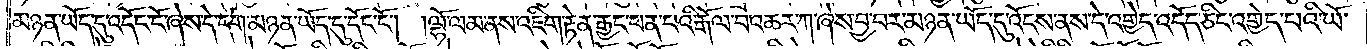མཉན་ཡོད་དུ་འདོང་ངོ་ཞེས་དེ་དག་མཉན་ཡོད་དུ་དོང་ངོ༌། །ལྷོ་ལམ་ནས་འཇིག་རྟེན་རྒྱང་ཕན་པའི་རྒོལ་བ་འཆར་ཀ་ཞེས་བྱ་བར་མཉན་ཡོད་དུ་འོངས་ནས་དེ་འགྱེད་འདོད་ཅིང་འགྱེད་པའི་ཡོ་
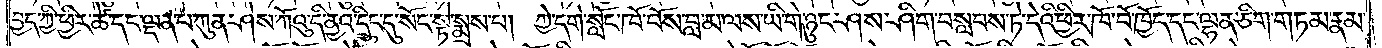བྱད་ཀྱི་ཕྱིར་ཚེ་དང་ལྡན་པ་ཀུན་ཤེས་ཀོའུ་དི་ནྱའི་དྲུང་དུ་སོང་སྟེ་སྨྲས་པ། ཀྱེ་དགེ་སློང་ཁོ་བོས་བླ་མ་ལས་ཡི་གེ་ཉུང་ཤས་ཤིག་བསླབས་ཏེ་དེའི་ཕྱིར་ཁོ་བོ་ཁྱོད་དང་ལྷན་ཅིག་གཏམ་རྣམ་
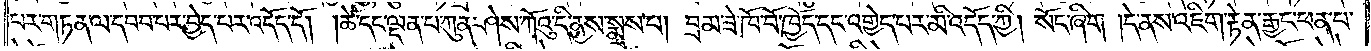པར་གཏན་ལ་དབབ་པར་བྱེད་པར་འདོད་དོ། །ཚེ་དང་ལྡན་པ་ཀུན་ཤེས་ཀོའུ་དི་ནྱས་སྨྲས་པ། བྲམ་ཟེ་ཁོ་བོ་ཁྱོད་དང་འགྱེད་པར་མི་འདོད་ཀྱི། སོང་ཞིག །དེ་ནས་འཇིག་རྟེན་རྒྱང་ཕན་པ་
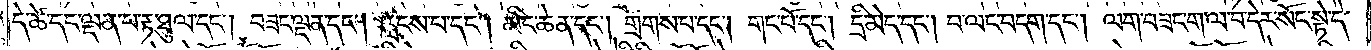དེ་ཚེ་དང་ལྡན་པ་རྟ་ཐུལ་དང༌། བཟང་ལྡན་དང༌། རླངས་པ་དང༌། མིང་ཆེན་དང༌། གྲགས་པ་དང༌། གང་པོ་དང༌། དྲི་མེད་དང༌། བ་ལང་བདག་དང༌། ལག་བཟང་ག་ལ་བ་དེར་སོང་སྟེ་དེ་
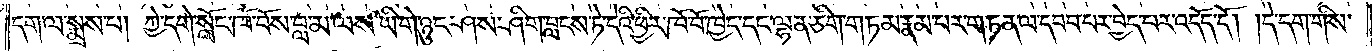དག་ལ་སྨྲས་པ། ཀྱེ་དགེ་སློང་ཁོ་བོས་བླ་མ་ལས་ཡི་གེ་ཉུང་ཤས་ཤིག་བླངས་ཏེ་དེའི་ཕྱིར་ཁོ་བོ་ཁྱེད་དང་ལྷན་ཅིག་གཏམ་རྣམ་པར་གཏན་ལ་དབབ་པར་བྱེད་པར་འདོད་དོ། །དེ་དག་གིས་
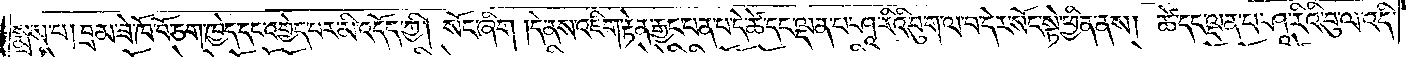སྨྲས་པ། བྲམ་ཟེ་ཁོ་བོ་ཅག་ཁྱེད་དང་འགྱེད་པར་མི་འདོད་ཀྱི། སོང་ཞིག །དེ་ནས་འཇིག་རྟེན་རྒྱང་པན་པ་དེ་ཚེ་དང་ལྡན་པ་ཤཱ་རིའི་བུ་ག་ལ་བ་དེར་སོང་སྟེ་ཕྱིན་ནས། ཚེ་དང་ལྡན་པ་ཤཱ་རིའི་བུ་ལ་འདི་
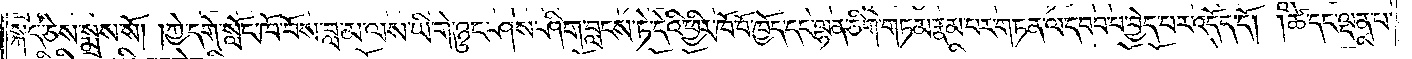སྐད་ཅེས་སྨྲས་སོ། །ཀྱེ་དགེ་སློང་ཁོ་བོས་བླ་མ་ལས་ཡི་གེ་ཉུང་ཤས་ཤིག་བླངས་ཏེ་དེའི་ཕྱིར་ཁོ་བོ་ཁྱོད་དང་ལྷན་ཅིག་གཏམ་རྣམ་པར་གཏན་ལ་དབབ་པ་བྱེད་པར་འདོད་དོ། །ཚེ་དང་ལྡན་པ་
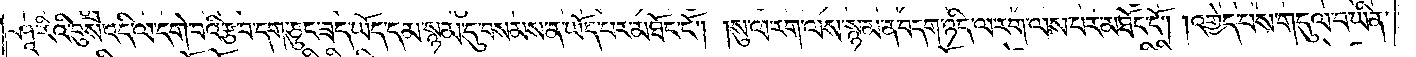ཤཱ་རིའི་བུས་འདི་ལ་དགེ་བའི་རྩ་བ་དག་ཅུང་ཟད་ཡོད་དམ་སྙམ་དུ་བསམས་ན་ཡོད་པར་མཐོང་ངོ༌། །སུ་ལ་རག་ལས་སྙམ་ན་བདག་ཉིད་ལ་རག་ལས་པར་མཐོང་ངོ༌། །འགྱེད་པས་གདུལ་བ་ཡིན་
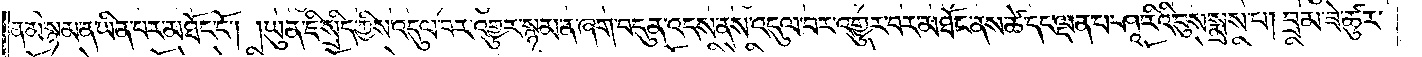ནམ་སྙམ་ན་ཡིན་པར་མཐོང་ངོ༌། །ཡུན་ཇི་སྲིད་ཀྱིས་འདུལ་བར་འགྱུར་སྙམ་ན་ཞག་བདུན་འདས་ནས་འདུལ་བར་འགྱུར་བར་མཐོང་ནས་ཚེ་དང་ལྡན་པ་ཤཱ་རིའི་བུས་སྨྲས་པ། བྲམ་ཟེ་ཚུར་
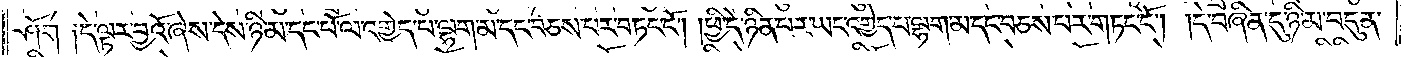ཤོག །དེ་ལྟར་བྱའོ་ཞེས་དེས་ཉི་མ་དང་པོ་ལ་འགྱེད་པ་ལྷག་མ་དང་བཅས་པར་བཏང་ངོ༌། །ཕྱི་དེ་ཉིན་པར་ཡང་འགྱེད་པ་ལྷག་མ་དང་བཅས་པར་གཏང་ངོ༌། །དེ་བཞིན་དུ་ཉི་མ་བདུན་
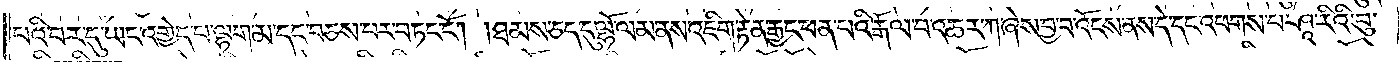པའི་བར་དུ་ཡང་འགྱེད་པ་ལྷག་མ་དང་བཅས་པར་བཏང་ངོ༌། །ཐམས་ཅད་དུ་ལྷོ་ལམ་ནས་འཇིག་རྟེན་རྒྱང་ཕན་པའི་རྒོལ་བ་འཆར་ཀ་ཞེས་བྱ་བ་འོངས་ནས་དེ་དང་འཕགས་པ་ཤཱ་རིའི་བུ་
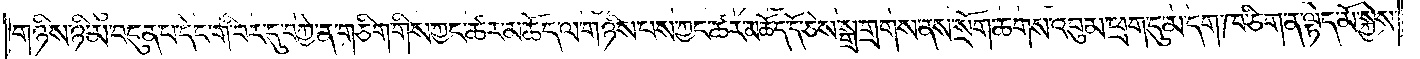གཉིས་ཉི་མ་བདུན་པ་དེང་གི་བར་དུ་བཀྱེ་ན་གཅིག་གིས་ཀྱང་ཚར་མ་ཆོད་ལ་གཉིས་པས་ཀྱང་ཚར་མཆོད་དོ་ཅེས་སྒྲ་གྲགས་ནས་སྲོག་ཆགས་འབུམ་ཕྲག་དུ་མ་དག་ཁ་ཅིག་ན་ལྟད་མོ་སྐྱེས་
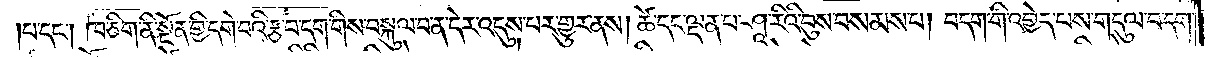པ་དང༌། ཁ་ཅིག་ནི་སྔོན་གྱི་དགེ་བའི་རྩ་བ་དག་གིས་བསྐུལ་བ་ན་དེར་འདུས་པར་གྱུར་ནས། ཚེ་དང་ལྡན་པ་ཤཱ་རིའི་བུས་བསམས་པ། བདག་གི་འགྱེད་པས་གདུལ་བ་དག་
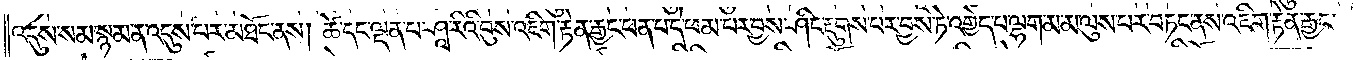འདུས་སམ་སྙམ་ན་འདུས་པར་མཐོང་ནས། ཚེ་དང་ལྡན་པ་ཤཱ་རིའི་བུས་འཇིག་རྟེན་རྒྱང་ཕན་པ་དེ་ཕམ་པར་བྱས་ཤིང་རྡུགས་པར་བྱས་ཏེ་འགྱེད་པ་ལྷག་མ་མ་ལུས་པར་བཏང་ནས་འཇིག་རྟེན་རྒྱང་
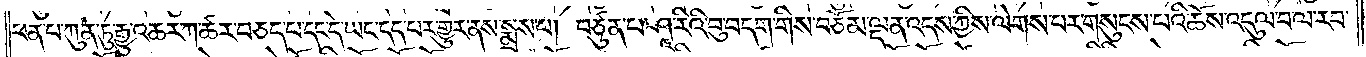ཕན་པ་ཀུན་ཏུ་རྒྱུ་འཆར་ཀ་ཚར་བཅད་པ་དང་དེ་ཡང་དད་པར་གྱུར་ནས་སྨྲས་པ། བཙུན་པ་ཤཱ་རིའི་བུ་བདག་གིས་བཅོམ་ལྡན་འདས་ཀྱིས་ལེགས་པར་གསུངས་པའི་ཆོས་འདུལ་བ་ལ་རབ་
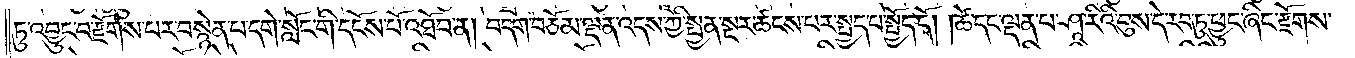ཏུ་འབྱུང་བ་རྫོགས་པར་བསྙེན་པ་དགེ་སློང་གི་དངོས་པོ་འཐོབ་ན། བདག་བཅོམ་ལྡན་འདས་ཀྱི་སྤྱན་སྔར་ཚངས་པར་སྤྱད་པ་སྤྱོད་དོ། །ཚེ་དང་ལྡན་པ་ཤཱ་རིའི་བུས་དེ་རབ་ཏུ་ཕྱུང་ཞིང་རྫོགས་
